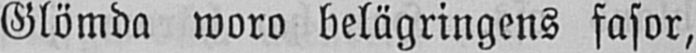Glömda woro belägringens fasor,
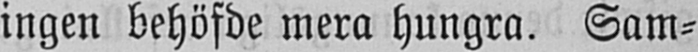ingen behöfde mera hungra. Sam-
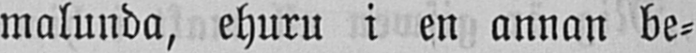malunda, ehuru i en annan be-
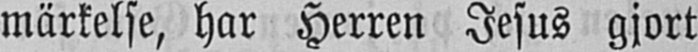märkelse, har Herren Jesus gjort
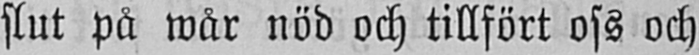slut på wår nöd och tillfört oss och
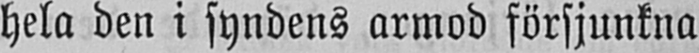hela den i syndens armod försjunkna
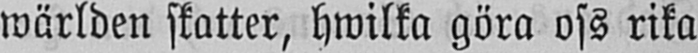wärlden skatter, hwilka göra oss rika
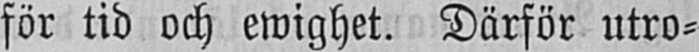för tid och ewighet. Därför utro-
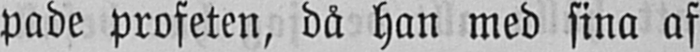pade profeten, då han med sina af
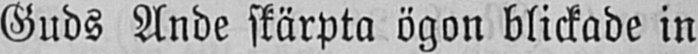Guds Ande skärpta ögon blickade in
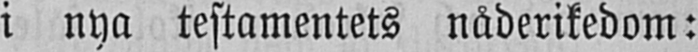i nya testamentets nåderikedom:
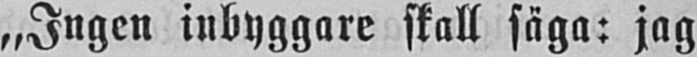„Ingen inbyggare skall säga: jag
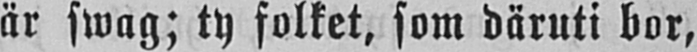är swag; ty folket, som däruti bor,
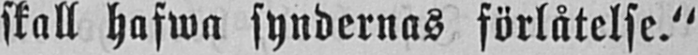skall hafwa syndernas förlåtelse."
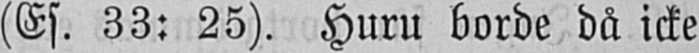(Es. 33: 25). Huru borde då icke
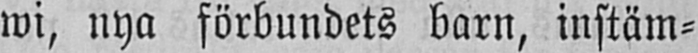wi, nya förbundets barn, instäm-
